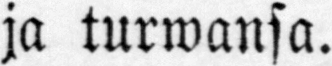ja turwansa.
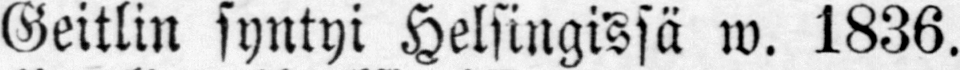Geitlin syntyi Helsingissä w. 1836.
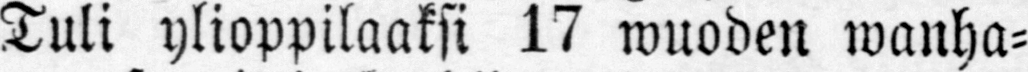Tuli ylioppilaaksi 17 wuoden wanha-
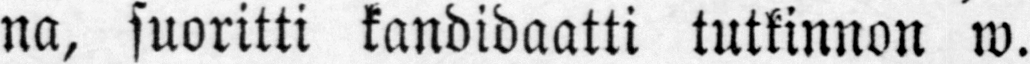na, suoritti kandidaatti tutkinnon w.
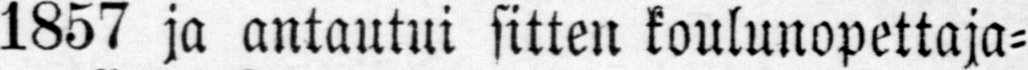1857 ja antautui sitten koulunopettaja-
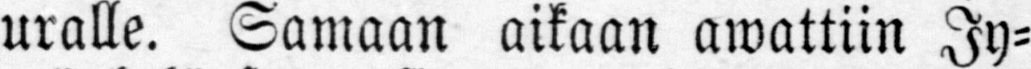uralle. Samaan aikaan awattiin Jy-
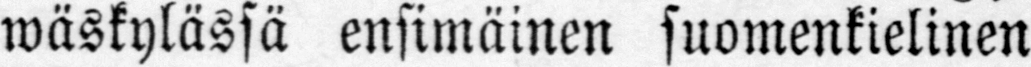wäskylässä ensimäinen suomenkielinen
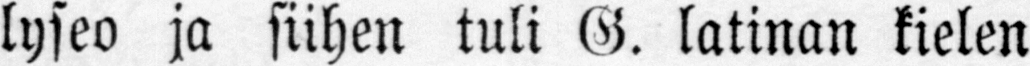lyseo ja siihen tuli G. latinan kielen
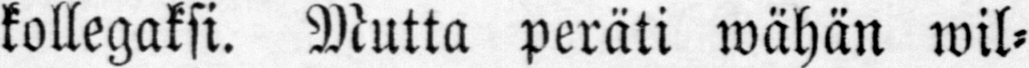kollegaksi. Mutta peräti wähän wil-
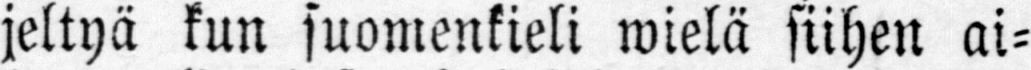jeltyä kun suomenkieli wielä siihen ai-
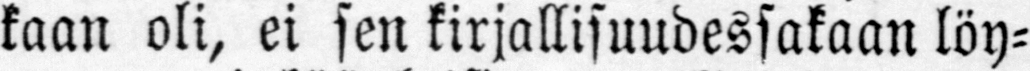kaan oli, ei sen kirjallisuudessakaan löy-
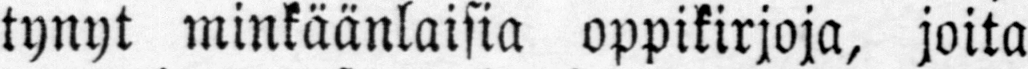tynyt minkäänlaisia oppikirjoja, joita
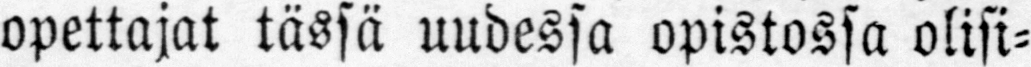opettajat tässä uudessa opistossa olisi-
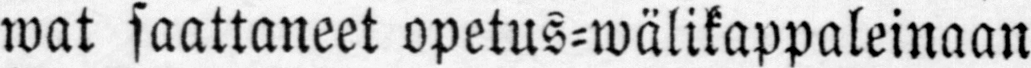wat saattaneet opetus-wälikappaleinaan
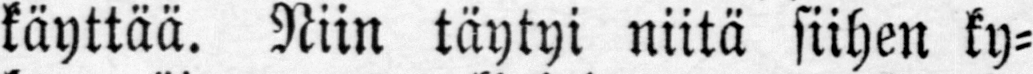käyttää. Niin täytyi niitä siihen ky-
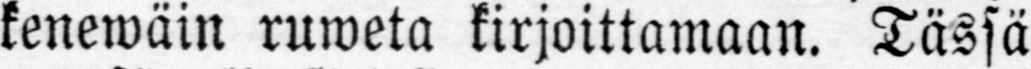kenewäin ruweta kirjoittamaan. Tässä
